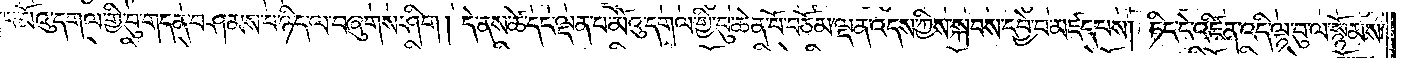པ་མོའུ་དགལ་གྱི་བུ་གདན་བཤམས་པ་ཉིད་ལ་བཞུགས་ཤིག །དེ་ནས་ཚེ་དང་ལྡན་པ་མོའུ་དགལ་གྱི་བུ་ཆེན་པོ་བཅོམ་ལྡན་འདས་ཀྱིས་སྐབས་དབྱེ་བ་མཛད་པས། ཏིང་ངེ་འཛིན་འདི་ལྟ་བུ་ལ་སྙོམས་
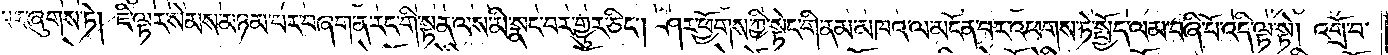པར་ཞུགས་ཏེ། ཇི་ལྟར་སེམས་མཉམ་པར་བཞག་ན་རང་གི་སྟན་ལས་མི་སྣང་བར་གྱུར་ཅིང༌། ཤར་ཕྱོགས་ཀྱི་སྟེང་གི་ནམ་མཁའ་ལ་མངོན་པར་འཕགས་ཏེ་སྤྱོད་ལམ་བཞི་པོ་འདི་ལྟ་སྟེ། འགྲོ་བ་
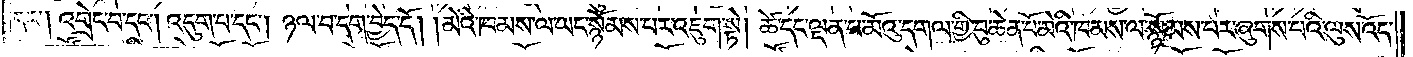དང༌། འགྲེང་བ་དང༌། འདུག་པ་དང༌། ཉལ་བ་དག་བྱེད་དོ། །མེའི་ཁམས་ལ་ཡང་སྙོམས་པར་འཇུག་སྟེ། ཚེ་དང་ལྡན་པ་མོའུ་དགལ་གྱི་བུ་ཆེན་པོ་མེའི་ཁམས་ལ་སྙོམས་པར་ཞུགས་པའི་ལུས་འོད་
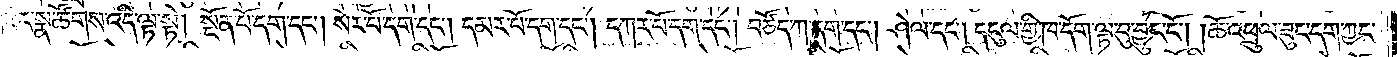ཟེར་སྣ་ཚོགས་འདི་ལྟ་སྟེ། སྔོན་པོ་དག་དང༌། སེར་པོ་དག་དང༌། དམར་པོ་དག་དང༌། དཀར་པོ་དག་དང༌། བཙོད་ཀ་དག་དང༌། ཤེལ་དང༌། དངུལ་གྱི་ཁ་དོག་ལྟ་བུ་བྱུང་ངོ༌། །ཆོ་འཕྲུལ་ཟུང་དག་ཀྱང་
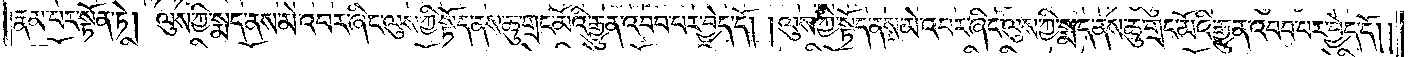རྣམ་པར་སྟོན་ཏེ། ལུས་ཀྱི་སྨད་ནས་མེ་འབར་ཞིང་ལུས་ཀྱི་སྟོད་ནས་ཆུ་གྲང་མོའི་རྒྱུན་འབབ་པར་བྱེད་དོ། །ལུས་ཀྱི་སྟོད་ནས་མེ་འབར་ཞིང་ལུས་ཀྱི་སྨད་ནས་ཆུ་གྲང་མོའི་རྒྱུན་འབབ་པར་བྱེད་དོ། །
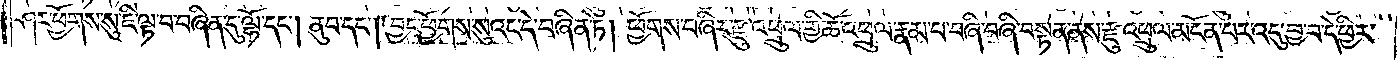ཤར་ཕྱོགས་སུ་ཇི་ལྟ་བ་བཞིན་དུ་ལྷོ་དང༌། ནུབ་དང༌། བྱང་ཕྱོགས་སུའང་དེ་བཞིན་ཏེ། ཕྱོགས་བཞིར་རྫུ་འཕྲུལ་གྱི་ཆོ་འཕྲུལ་རྣམ་པ་བཞི་བཞི་བསྟན་ནས་རྫུ་འཕྲུལ་མངོན་པར་འདུ་བྱ་བ་དེ་ཕྱིར་
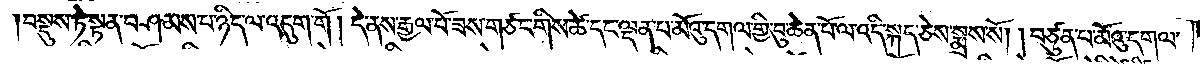བསྡུས་ཏེ་སྟན་བཤམས་པ་ཉིད་ལ་འདུག་གོ །དེ་ནས་རྒྱལ་པོ་ཟས་གཙང་གིས་ཚེ་དང་ལྡན་པ་མོའུ་དགལ་གྱི་བུ་ཆེན་པོ་ལ་འདི་སྐད་ཅེས་སྨྲས་སོ། །བཙུན་པ་མོའུ་དགལ་
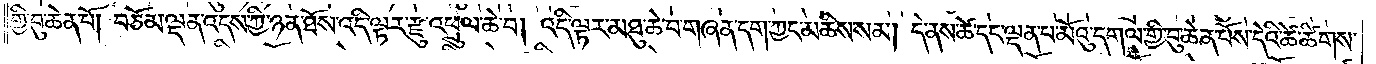གྱི་བུ་ཆེན་པོ། བཅོམ་ལྡན་འདས་ཀྱི་ཉན་ཐོས་འདི་ལྟར་རྫུ་འཕྲུལ་ཆེ་བ། འདི་ལྟར་མཐུ་ཆེ་བ་གཞན་དག་ཀྱང་མཆིས་སམ། དེ་ནས་ཚེ་དང་ལྡན་པ་མོའུ་དགལ་གྱི་བུ་ཆེན་པོས་དེའི་ཚེ་ཚིགས་
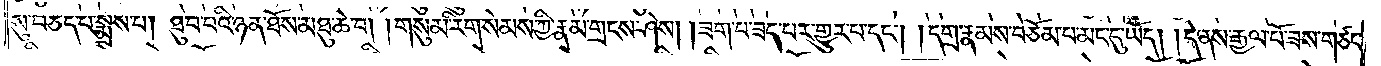སུ་བཅད་པ་སྨྲས་པ། ཐུབ་པའི་ཉན་ཐོས་མཐུ་ཆེ་བ། གསུམ་རིག་སེམས་ཀྱི་རྣམ་གྲངས་ཤེས། །ཟག་པ་ཟད་པར་གྱུར་པ་དང༌། །དགྲ་རྣམས་བཅོམ་པ་མང་དུ་ཡོད། །དེ་ནས་རྒྱལ་པོ་ཟས་གཙང་
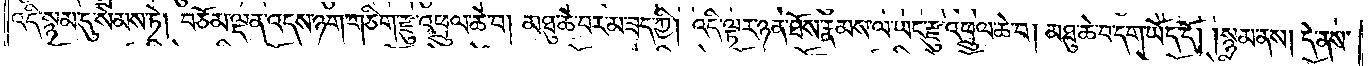འདི་སྙམ་དུ་སེམས་ཏེ། བཅོམ་ལྡན་འདས་ཉག་གཅིག་རྫུ་འཕྲུལ་ཆེ་བ། མཐུ་ཆེ་བར་མ་ཟད་ཀྱི། འདི་ལྟར་ཉན་ཐོས་རྣམས་ལ་ཡང་རྫུ་འཕྲུལ་ཆེ་བ། མཐུ་ཆེ་བ་དག་ཡོད་དོ། །སྙམ་ནས། དེ་ནས་
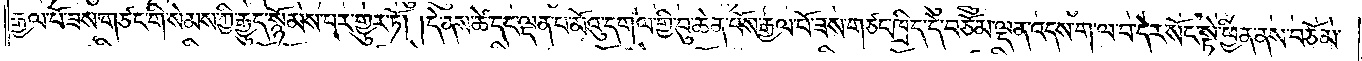རྒྱལ་པོ་ཟས་གཙང་གི་སེམས་ཀྱི་རྒྱུད་སྙོམས་པར་གྱུར་ཏོ། །དེ་ནས་ཚེ་དང་ལྡན་པ་མོའུ་དགལ་གྱི་བུ་ཆེན་པོས་རྒྱལ་པོ་ཟས་གཙང་ཁྲིད་དེ་བཅོམ་ལྡན་འདས་ག་ལ་བ་དེར་སོང་སྟེ་ཕྱིན་ནས་བཅོམ་
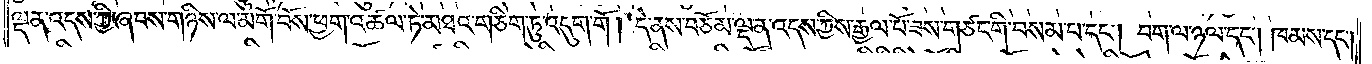ལྡན་འདས་ཀྱི་ཞབས་གཉིས་ལ་མགོ་བོས་ཕྱག་འཚལ་ཏེ་མཐའ་གཅིག་ཏུ་འདུག་གོ །དེ་ནས་བཅོམ་ལྡན་འདས་ཀྱིས་རྒྱལ་པོ་ཟས་གཙང་གི་བསམ་པ་དང༌། བག་ལ་ཉལ་དང༌། ཁམས་དང༌།
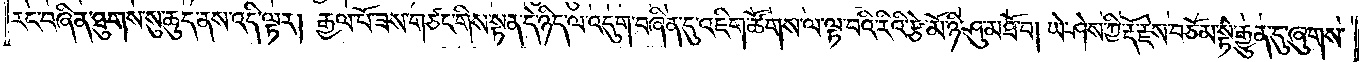རང་བཞིན་ཐུགས་སུ་ཆུད་ནས་འདི་ལྟར། རྒྱལ་པོ་ཟས་གཙང་གིས་སྟན་དེ་ཉིད་ལ་འདུག་བཞིན་དུ་འཇིག་ཚོགས་ལ་ལྟ་བའི་རིའི་རྩེ་མོ་ཉི་ཤུ་མཐོ་བ། ཡེ་ཤེས་ཀྱི་རྡོ་རྗེས་བཅོམ་སྟེ་རྒྱུན་དུ་ཞུགས་
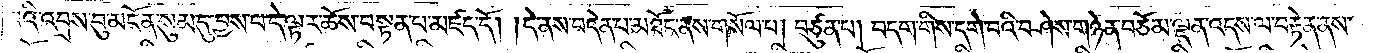པའི་འབྲས་བུ་མངོན་སུམ་དུ་བྱས་པ་དེ་ལྟར་ཆོས་བསྟན་པ་མཛད་དོ། །དེ་ནས་བདེན་པ་མཐོང་ནས་གསོལ་བ། བཙུན་པ། བདག་གིས་དགེ་བའི་བཤེས་གཉེན་བཅོམ་ལྡན་འདས་ལ་བརྟེན་ནས་
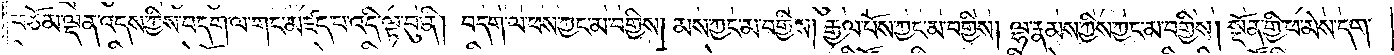བཅོམ་ལྡན་འདས་ཀྱིས་བདག་ལ་གང་མཛད་པ་འདི་ལྟ་བུ་ནི། བདག་ལ་ཕས་ཀྱང་མ་བགྱིས། མས་ཀྱང་མ་བགྱིས། རྒྱལ་པོས་ཀྱང་མ་བགྱིས། ལྷ་རྣམས་ཀྱིས་ཀྱང་མ་བགྱིས། སྔོན་གྱི་ཕ་མེས་དག་
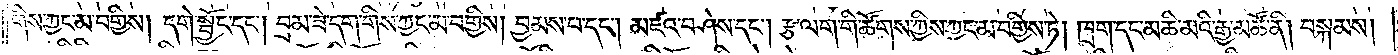གིས་ཀྱང་མ་བགྱིས། དགེ་སྦྱོང་དང༌། བྲམ་ཟེ་དག་གིས་ཀྱང་མ་བགྱིས། བྱམས་པ་དང༌། མཛའ་བཤེས་དང༌། རྩ་ལག་གི་ཚོགས་ཀྱིས་ཀྱང་མ་བགྱིས་ཏེ། ཁྲག་དང་མཆི་མའི་རྒྱ་མཚོ་ནི། བསྐམས།
